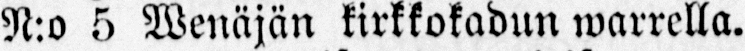N.o 5 Wenäjän kirkkokadun warrella.
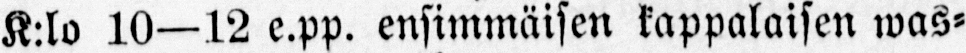K:lo 10—12 e.pp. ensimmäisen kappalaisen was-
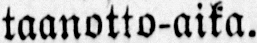taanotto-aika.
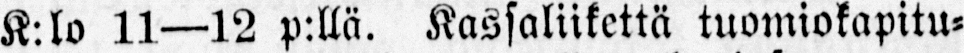K.lo 11—12 p:llä. Kassaliikettä tuomiokapitu-
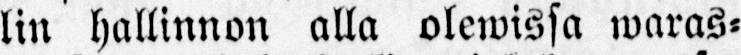lin hallinnon alla olewissa waras-
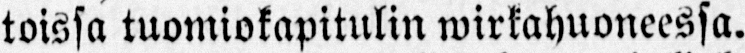toissa tuomiokapitulin wirkahuoneessa.
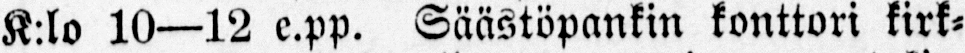K:lo 10—12 e.pp. Säästöpankin konttori kirk-
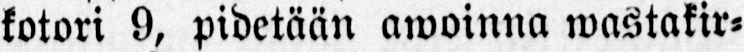kotori 9, pidetään awoinna wastakir-
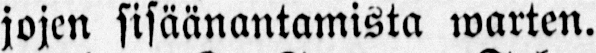jojen sisäänantamista warten.
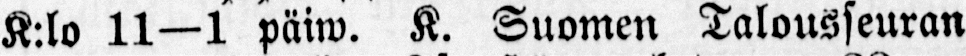K:lo 11—1 päiw. K. Suomen Talousseuran
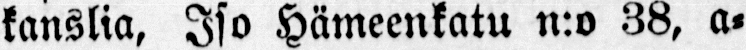kanslia, Iso Hämeenkatu n:o 38, a-
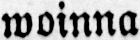woinna
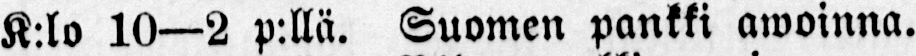K.lo 10—2 p.llä. Suomen pankki awoinna.
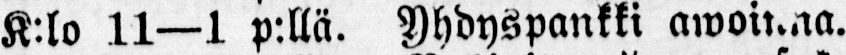K.lo 11—1 p:llä. Yhdyspankki awoinna.
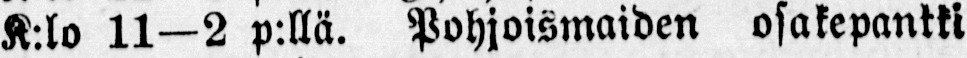K:lo 11—2 p:llä. Pohjoismaiden osakepankki
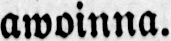awoinna.
